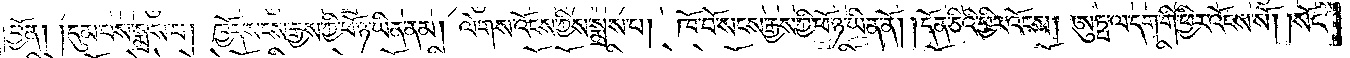བྱོན། །དུམ་པས་སྨྲས་པ། ཁྱོད་སངས་རྒྱས་ཀྱི་ཕོ་ཉ་ཡིན་ནམ། ལེགས་འོངས་ཀྱིས་སྨྲས་པ། ཁོ་བོ་སངས་རྒྱས་ཀྱི་ཕོ་ཉ་ཡིན་ནོ། །དོན་ཅིའི་ཕྱིར་འོངས། ཨུཏྤ་ལ་དག་གི་ཕྱིར་འོངས་སོ། །སོང་
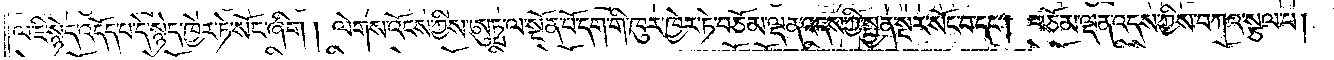ལ་ཇི་སྙེད་འདོད་པ་དེ་སྙེད་ཁྱེར་ཏེ་སོང་ཞིག ། ལེགས་འོངས་ཀྱིས་ཨུཏྤ་ལ་སྔོན་པོ་དག་གི་ཁུར་ཁྱེར་ཏེ་བཅོམ་ལྡན་འདས་ཀྱི་སྤྱན་སྔར་སོང་བ་དང༌། བཅོམ་ལྡན་འདས་ཀྱིས་བཀའ་སྩལ་པ།
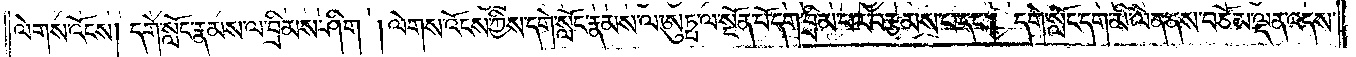ལེགས་འོངས། དགེ་སློང་རྣམས་ལ་བྲིམས་ཤིག །ལེགས་འོངས་ཀྱིས་དགེ་སློང་རྣམས་ལ་ཨུཏྤ་ལ་སྔོན་པོ་དག་བྲིམ་པར་བརྩམས་པ་དང༌། དགེ་སློང་དག་མི་ལེན་ནས་བཅོམ་ལྡན་འདས་
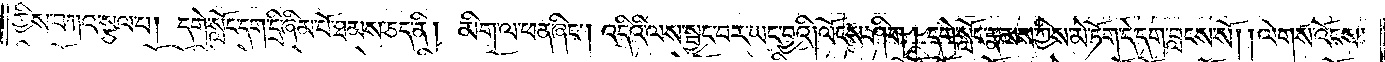ཀྱིས་བཀའ་སྩལ་པ། དགེ་སློང་དག་དྲི་ཞིམ་པོ་ཐམས་ཅད་ནི། མིག་ལ་ཕན་ཞིང༌། འདིའི་ལས་སྦྱང་བར་ཡང་བྱའི། ལོངས་ཤིག །དགེ་སློང་རྣམས་ཀྱིས་མེ་ཏོག་དེ་དག་བླངས་སོ། །ལེགས་འོངས་
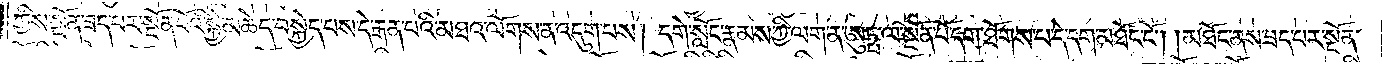ཀྱིས་སྔོན་ཟད་པར་སྔོན་པོའི་སྐྱེ་མཆེད་བསྐྱེད་པས་དེ་རྒན་པའི་མཐའ་ལོགས་ན་འདུག་པས། དགེ་སློང་རྣམས་ཀྱི་ལག་ན་ཨུཏྤ་ལ་སྔོན་པོ་དག་ཐོགས་པ་དེ་དག་མཐོང་ངོ༌། །མཐོང་ནས་ཟད་པར་སྔོན་
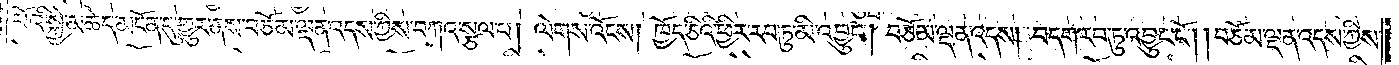པོའི་སྐྱེ་མཆེད་མངོན་དུ་གྱུར་ནས་བཅོམ་ལྡན་འདས་ཀྱིས་བཀའ་སྩལ་པ། ལེགས་འོངས། ཁྱོད་ཅིའི་ཕྱིར་རབ་ཏུ་མི་འབྱུང༌། བཅོམ་ལྡན་འདས། བདག་རབ་ཏུ་འབྱུང་ངོ༌། །བཅོམ་ལྡན་འདས་ཀྱིས་
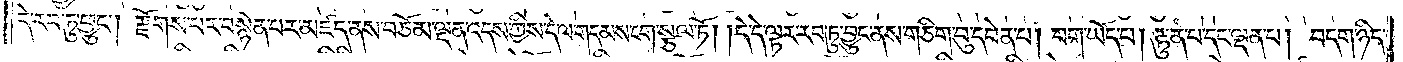དེ་རབ་ཏུ་ཕྱུང༌། རྫོགས་པར་བསྙེན་པར་མཛད་ནས་བཅོམ་ལྡན་འདས་ཀྱིས་དེ་ལ་གདམས་ངག་སྩལ་ཏོ། །དེ་དེ་ལྟར་རབ་ཏུ་བྱུང་ནས་གཅིག་པུ་དབེན་པ། བག་ཡོད་པ། རྟུན་པ་དང་ལྡན་པ། བདག་ཉིད་
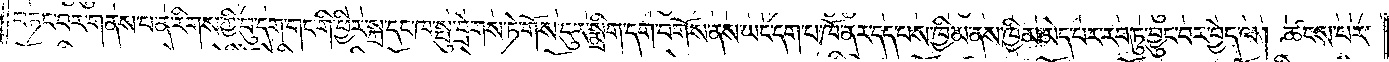བཏང་བར་གནས་པ་ན་རིགས་ཀྱི་བུ་དག་གང་གི་ཕྱིར་སྐྲ་དང་ཁ་སྤུ་བྲེགས་ཏེ་གོས་ངུར་སྨྲིག་དག་བགོས་ནས་ཡང་དག་པ་ཁོ་ནར་དད་པས་ཁྱིམ་ནས་ཁྱིམ་མེད་པར་རབ་ཏུ་བྱུང་བར་བྱེད་ལ། ཚངས་པར་
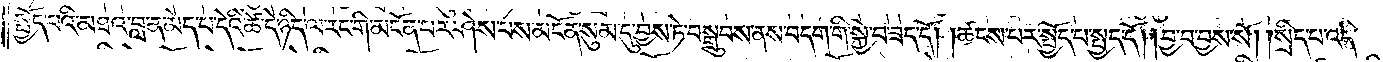སྤྱོད་པའི་མཐའ་བླ་ན་མེད་པ་དེའི་ཚེ་དེ་ཉིད་ལ་རང་གི་མངོན་པར་ཤེས་པས་མངོན་སུམ་དུ་བྱས་ཏེ་བསྒྲུབས་ནས་བདག་གི་སྐྱེ་བ་ཟད་དོ། །ཚངས་པར་སྤྱོད་པ་སྤྱད་དོ། །བྱ་བ་བྱས་སོ། །སྲིད་པ་འདི་
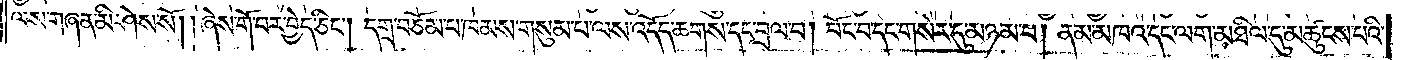ལས་གཞན་མི་ཤེས་སོ། །ཞེས་གོ་བར་བྱེད་ཅིང༌། དགྲ་བཅོམ་པ་ཁམས་གསུམ་པ་ལས་འདོད་ཆགས་དང་བྲལ་བ། བོང་བ་དང་གསེར་དུ་མཉམ་པ། ནམ་མཁའ་དང་ལག་མཐིལ་དུ་མཚུངས་པའི་
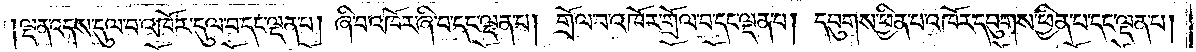ལྡན་འདས་དུལ་བ་འཁོར་དུལ་བ་དང་ལྡན་པ། ཞི་བ་འཁོར་ཞི་བ་དང་ལྡན་པ། གྲོལ་བ་འཁོར་གྲོལ་བ་དང་ལྡན་པ། དབུགས་ཕྱིན་པ་འཁོར་དབུགས་ཕྱིན་པ་དང་ལྡན་པ།
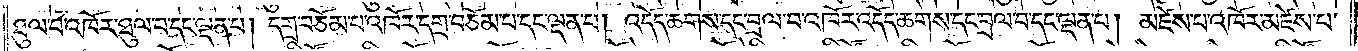ཐུལ་བ་འཁོར་ཐུལ་བ་དང་ལྡན་པ། དགྲ་བཅོམ་པ་འཁོར་དགྲ་བཅོམ་པ་དང་ལྡན་པ། འདོད་ཆགས་དང་བྲལ་བ་འཁོར་འདོད་ཆགས་དང་བྲལ་བ་དང་ལྡན་པ། མཛེས་པ་འཁོར་མཛེས་པ་
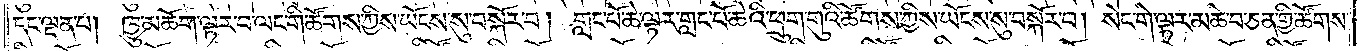དང་ལྡན་པ། ཁྱུ་མཆོག་ལྟར་བ་ལང་གི་ཚོགས་ཀྱིས་ཡོངས་སུ་བསྐོར་བ། གླང་པོ་ཆེ་ལྟར་གླང་པོ་ཆེའི་ཕྲུག་གུའི་ཚོགས་ཀྱིས་ཡོངས་སུ་བསྐོར་བ། སེང་གེ་ལྟར་མཆེ་བ་ཅན་གྱི་ཚོགས་
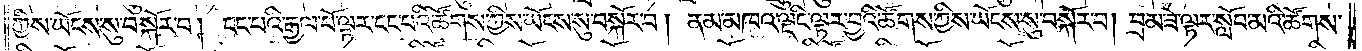ཀྱིས་ཡོངས་སུ་བསྐོར་བ། ངང་པའི་རྒྱལ་པོ་ལྟར་ངང་པའི་ཚོགས་ཀྱིས་ཡོངས་སུ་བསྐོར་བ། ནམ་མཁའ་ལྡིང་ལྟར་བྱའི་ཚོགས་ཀྱིས་ཡོངས་སུ་བསྐོར་བ། བྲམ་ཟེ་ལྟར་སློབ་མའི་ཚོགས་
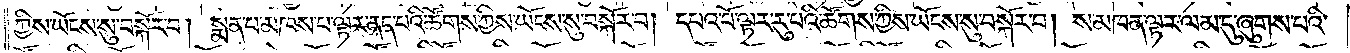ཀྱིས་ཡོངས་སུ་བསྐོར་བ། སྨན་པ་མཁས་པ་ལྟར་ནད་པའི་ཚོགས་ཀྱིས་ཡོངས་སུ་བསྐོར་བ། དཔའ་བོ་ལྟར་རུ་པའི་ཚོགས་ཀྱིས་ཡོངས་སུ་བསྐོར་བ། ས་མཁན་ལྟར་ལམ་དུ་ཞུགས་པའི་
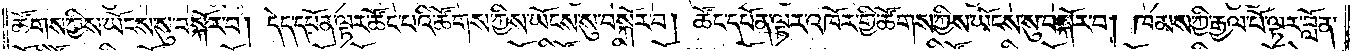ཚོགས་ཀྱིས་ཡོངས་སུ་བསྐོར་བ། དེད་དཔོན་ལྟར་ཚོང་པའི་ཚོགས་ཀྱིས་ཡོངས་སུ་བསྐོར་བ། ཚོང་དཔོན་ལྟར་འཁོར་གྱི་ཚོགས་ཀྱིས་ཡོངས་སུ་བསྐོར་བ། ཁམས་ཀྱི་རྒྱལ་པོ་ལྟར་བློན་
